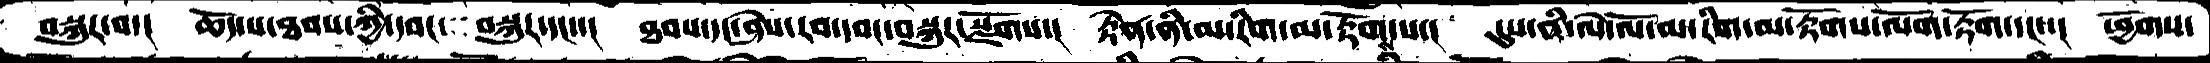བསྐུར་བ་།   ཆོད་པ་ཐབས་ཀྱི་དབང་  བསྐུར་དང་་།  ཐབས་དང་ཤེས་རབ་དབང་བསྐུར་སྫོགས་།   རྟེན་ནི་མ་རིག་མ་རྟོག་པ་།  དུས་ནི་ལེ་ལོ་མ་རིག་མ་རྟོག་ལོག་རྟོག་དང་་།  ཕྱོགས་
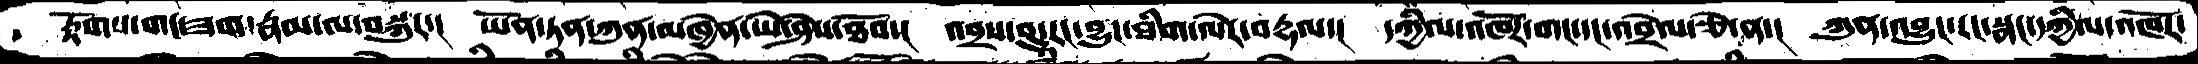རྟོགས་གང་ཟག་རྣམ་ལ་བསྐུར་།  ཡོན་ཏན་ཀུན་མཁྱེན་ཡེ་ཤེས་ཐོབ་།  འབྲས་བུ་རང་བྱུང་ཐིག་ལེར་བརྡལ་།  དཀྱིལ་འཁོར་གང་དང་འབྲེལ་ཅེ་ན་།  ཀུན་འབྱུང་རང་སྣང་དཀྱིལ་འཁོར་
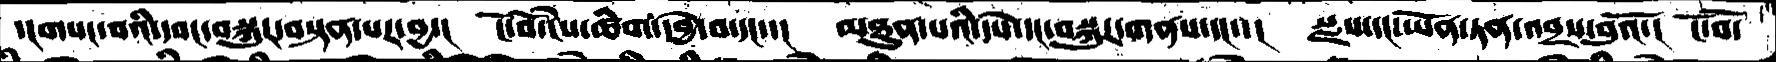་།གསང་བའི་དབང་བསྐུར་བསྟན་པར་བྱ་། ངོ་བོ་ངེས་ཚིག་དབྱེ་བ་དང་་།  མཐུན་པའི་དཔེ་དང་བསྐུར་གནས་དང་་།  སྫས་དང་ཡོན་ཏན་འབྲས་བུའོ་།  ངོ་བོ་
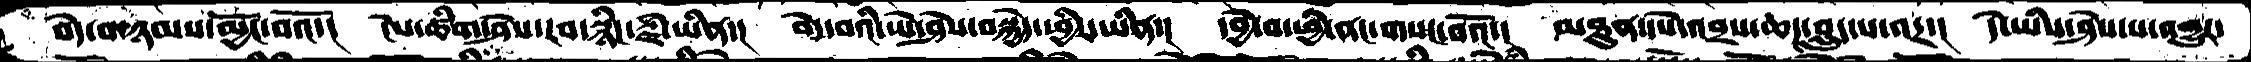བདེ་བ་ཉམས་མྱོང་བའོ་།  ངེས་ཚིག་ཤེས་རབ་སྙིང་རྗེ་ཡིན་།  བདེ་བའི་ཡེ་ཤེས་བསྐྱེད་ཕྱིར་ཡིན་།  དབྱེ་བ་ཕྱི་ནང་གསང་བའོ་།  མཐུན་དཔེ་འབྲས་ཆད་བླུད་པ་འདྲ་།  དེ་ཡིས་ཤེས་པ་འགྱུར་
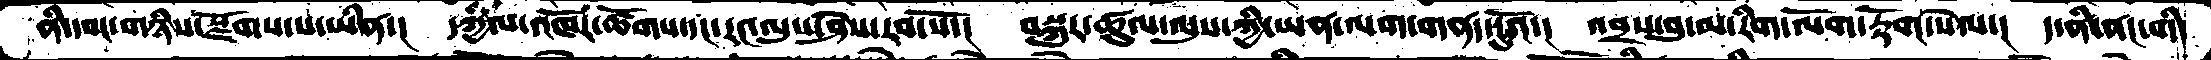ནི་དབང་གཉིས་སྫོགས་པ་ཡིན་།   དཀྱིལ་འཁོར་ཚོགས་དང་རང་ལུས་ཤེས་རབ་སོ་།  བསྐུར་ཚུལ་ལུས་ཀྱི་ཡན་ལག་གནད་དུའོ་།  འབྲས་བུ་མ་རིག་ལོག་རྟོག་སེལ་།  ད་ནི་ནང་གི།
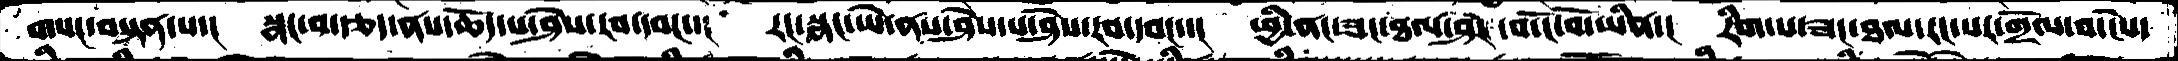གསང་བསྟན་པ་།  སྣང་བ་རྩད་ནས་ཆོད་པ་ཤེས་རབ་དབང་།  རང་སྣང་ཡེ་ནས་ཤེས་པ་ཤེས་རབ་དབང་་། ཕྱི་ནང་ཟང་ཐལ་ཤར ་བ་ངོ་བོ་ཡིན་།  རིག་པ་ཟང་ཐལ་རང་སར་གྲོལ་བ་ངེས་
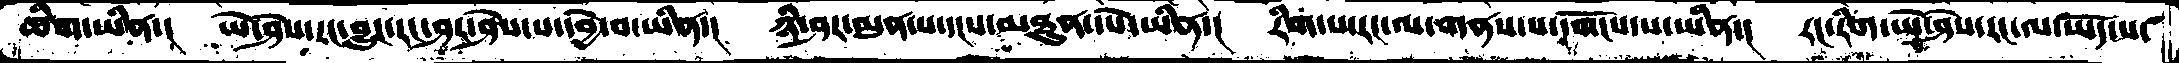ཚིག་ཡིན་།  ཡེ་ཤེས་རང་བྱུང་རང་ཤར་ཤེས་པ་དབྱེ་བ་ཡིན་།  ཉི་ཤར་མུན་པ་དངས་མཐུན་པེ་ཡིན་།  རིག་པ་རང་ལ་གནས་པ་དགོངས་པ་ཡིན་།  རང་རིག་ཡེ་ཤེས་རང་ལ་ཡོད་པ་
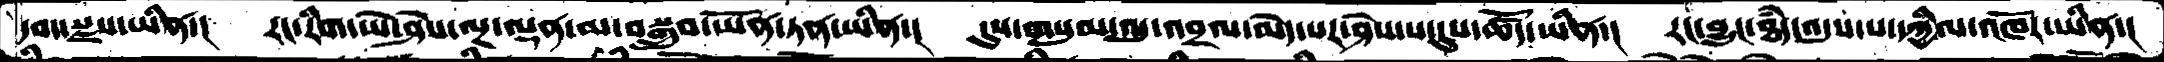དབང་སྫས་ཡིན་།  རང་རིག་ཡེ་ཤེས་ལྔ་ལྡན་མ་བསྒྲུབ་ཡོན་ཏན་ཡིན་།    དུས་གསུམ་འདུ་འབྲལ་མེད་པར་ཤེས་པ་དུས་ཚོད་ཡིན་།   རང་བྱུང་ཐཾད་འདུས་པ་དཀྱིལ་འཁོར་ཡིན་།
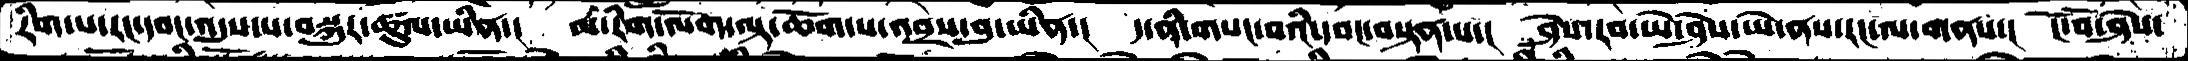རིག་པ་རང་དབང་འདུས་པ་བསྐུར་ཚུལ་་ཡིན་།  མ་རིག་ལོག་ལྟ་ཆོག་པ་འབྲས་བུ་ཡིན་།  ད་ནི་གསང་བའི་དབང་བསྟན་པ་།  ཤེས་རབ་ཡེ་ཤེས་ཡེ་ནས་རང་ལ་གནས་།  ངོ་བོ་ཤེས་
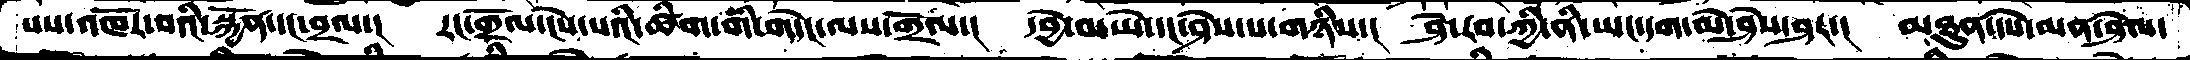པས་འཁོར་བའི་སྐྱོན་དང་བྲལ་།  རང་གྲོལ་ངེས་པའི་ཚིག་གི་གདེང་ལས་གྲོལ་།  དབྱེ་བ་ཡེ་དང་ཤེས་པ་གཉིས་།  ཤེ་རབ་ཀྱི་ནི་ཡང་དག་མེ་ཤེས་ཤར་།  མཐུན་དཔེ་མན་ཤེལ་
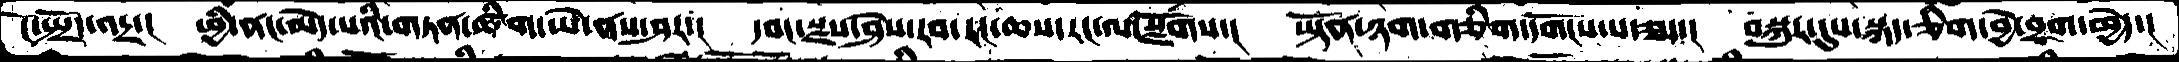ངོ་སྤྲོད་འདྲ་།  ཕྱི་ནང་མེད་པའི་གཏན་ཚིག་ཡེ་ནས་ཤར་།  དབང་སྫས་ཤེས་རབ་རང་ཆས་རང་ལ་སྫོགས་།  ཡྟོན་ཉག་གཅིག་དགོངས་པ་ཟད་།  བསྐུར་དུས་སྐད་ཅིག་བྱེ་བྲག་ཕྱེད་།
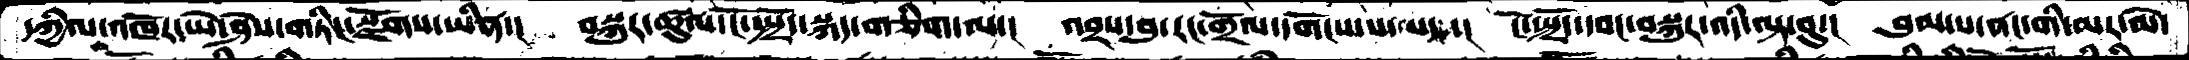དཀྱིལ་འཁོར་ཡེ་ཤེས་གཏིང་སྫོགས་ཡིན་།  བསྐུར་ཚུལ་ངོ་སྤྲོད་སྐད་གཅིག་ལ་།  འབྲས་བུ་རང་གྲོལ་དགོངས་པ་སད་།  ངོ་སྤྲོད་དབང་བསྐུར་འདི་ལྟ་བུ་།  བུམ་པ་ནང་གི་མར་མེ་
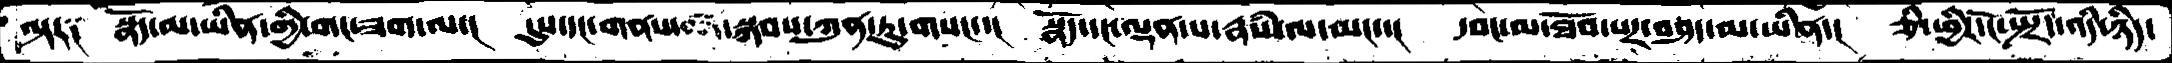ལྟར༑  སྣོད་མ་ཡིན་གྱི་གང་ཟག་ལ་།  དུས་དང་གནས་སྐབས་ཀུན་ཏུ་གསང་་།  སྣོད་དང་ལྡན་པ་རྣཾས་ལ་མང་་།  དབང་མ་ཐོབ་པར་བཤད་མ་ཡིན་།  ཅི་ཕྱིར་ངོ་སྤྲོད་འདི་ཉིད་
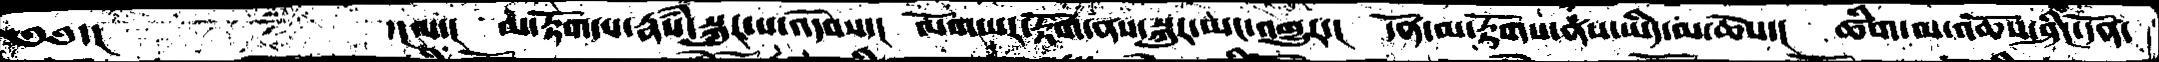༅༅་།        ་།ལ་།  མ་རྟོག་པ་རྣཾས་སྐུར་པ་འདེབས་།  ལོག་པར་རྟོག་ནས་སྐུར་མང་འགྱུར་།  དོན་མ་རྟོགས་ནས་ཡིད་མ་ཆེས་།  ཚིག་ལ་འཆོས་ཤིང་དོན་
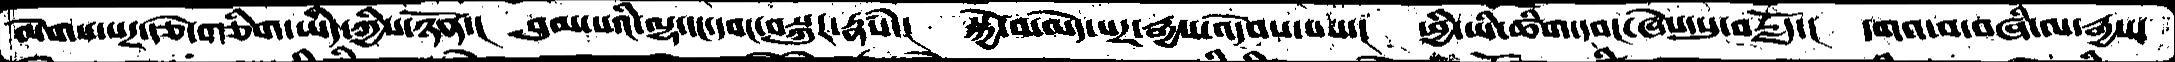ལེགས་པར་རྩེ་གཅིག་ཡིད་ཀྱིས་ཉོན་།  བུམ་པའི་ལྷ་དང་དབང་བསྐུར་རྣཾས་།  སྐྱེ་བ་མེད་པར་རྒྱས་འདེབས་པས་།  ཕྱི་ཡི་ཚིག་དབང་ཞེས་སུ་བརྗོད་།  དགའ་བ་བཞི་ལ་རྒྱས་
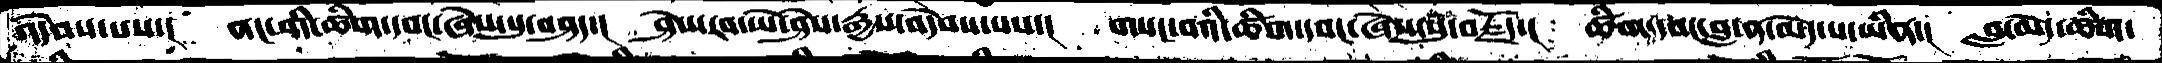འདེབས་པས་།  ནང་གི་ཚིག་དབང་ཞེས་སུ་བཤད་།  ཤེས་རབ་ཡེ་ཤེས་རྒྱས་འདེབས་པས་།  གསང་བའི་ཚིག་དབང་ཞེས་སུ་བརྗོད་།  ཚིག་དབང་བླ་ན་མེད་པ་ཡིན་།  བླ་མེད་ཚིག་
